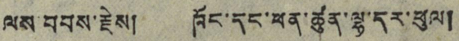ལས་བབས་རྗེས། ཁོང་དང་ཕན་ཚུན་ལྷ་དར་ཕུལ།
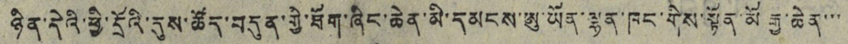ཉིན་དེའི་ཕྱི་དྲོའི་དུས་ཚོད་བདུན་གྱི་ཐོག་ཞིང་ཆེན་མི་དམངས་ཨུ་ཡོན་ལྷན་ཁང་གིས་སྟོན་མོ རྒྱ་ཆེན་་་
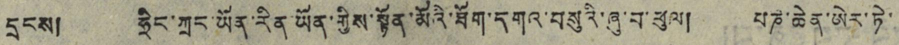དྲངས། ཧྲིང་ཀྲང་ཡོན་རིན་ཡོན་གྱིས་སྟོན་མོའི་ཐོག་དགའ་བསུའི་ཞུ་བ་ཕུལ། པཎ་ཆེན་ཨེར་ཏེ་
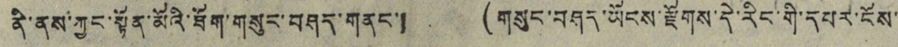ནི་ནས་ཀྱང་སྟོན་མོའི་ཐོག་གསུང་བཤད་གནང་། (གསུང་བཤད་ཡོངས་རྫོགས་དེ་རིང་གི་དཔར་ངོས་
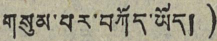གསུམ་པར་བཀོད་ཡོད།)
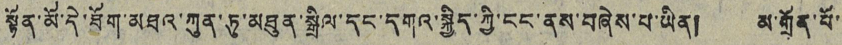སྟོན་མོ་དེ་ཟོག་མཐའ་ཀུན་ཏུ་མཐུན་སྒྲིལ་དང་དགའ་སྐྱིད་ཀྱི་ངང་ནས་བཞེས་པ་ཡིན། མ་གྲོན་པོ་
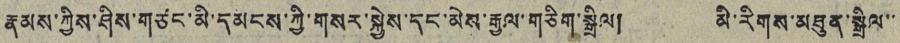རྣམས་ཀྱིས་ཤིས་གཙང་མི་དམངས་ཀྱི་གསར་སྐྱེས་དང་མེས་རྒྱལ་གཅིག་སྒྲིལ། མི་རིགས་མཐུན་སྒྲིལ་་
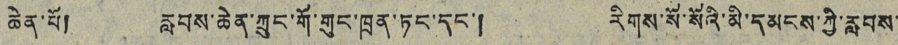ཆེན་པོ། རླབས་ཆེན་ཀྲུང་གོ་གུང་ཁྲན་ཏང་དང་། རིགས་སོ་སོའི་མི་དམངས་ཀྱི་རླབས་
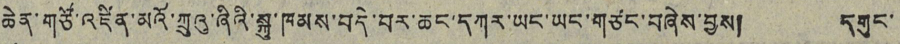ཆེན་གཙོ་འཛིན་མའོ་ཀྲུའུ་ཞིའི་སྐུ་ཁམས་བདེ་བར་ཆང་དཀར་ཡང་ཡང་གཙང་བཞེས་བྱས། དགུང་
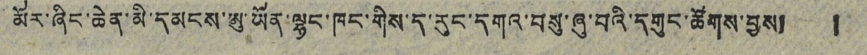མོར་ཞིང་ཆེན་མི་དམངས་ཨུ་ཡོན་ལྷང་ཁང་གིས་ད་རུང་དགའ་བསུ་ཞུ་བའི་དགུང་ཚོགས་བྱས། །
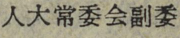人大常委会副委
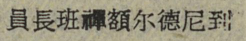員長班禪額尔德尼到
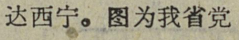达西字。图为我省党
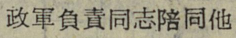政軍負責同志陪同他
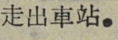走出車站。
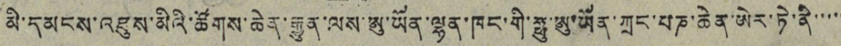མི་དམངས་འཇུས་མིའི་ཚོགས་ཆེན་རྒྱུན་ལས་ཨུ་ཡོན་ལྷན་ཁང་གི་ཧྥུ་ཨུ་ཡོན་ཀྲང་པཎ་ཆེན་ཨེར་ཏེ་ནི་་་་་
